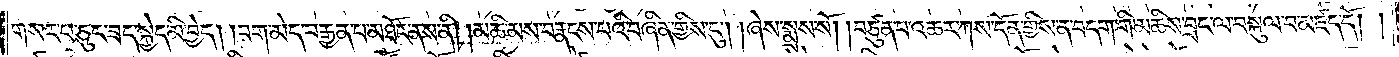གསར་པ་ཅུང་ཟད་སྐྱེད་མི་བྱེད། །བག་མེད་བརྒྱན་པ་མཐོང་ནས་ནི། །མཆི་མས་བརྣངས་པའི་བཞིན་གྱིས་ངུ༌། །ཞེས་སྨྲས་སོ། །བཙུན་པ་འཆར་ཀས་དོན་གྱིས་ན་བདག་གི་མཆིས་བྲང་ལ་བསྐུལ་བ་མཛད་དོ། །
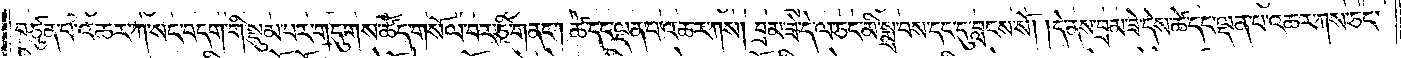བཙུན་པ་འཆར་ཀ་སང་བདག་གི་སྡུམ་པར་གདུགས་ཚོད་གསོལ་བར་ཅི་གནང༌། ཚེ་དང་ལྡན་པ་འཆར་ཀས། བྲམ་ཟེ་དེ་ལ་ཅང་མི་སྨྲ་བས་དང་དུ་བླངས་སོ། །དེ་ནས་བྲམ་ཟེ་དེས་ཚེ་དང་ལྡན་པ་འཆར་ཀས་ཅང་
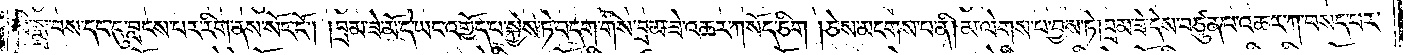མི་སྨྲ་བས་དང་དུ་བླངས་པར་རིག་ནས་སོང་ངོ༌། །བྲམ་ཟེ་མོ་དེ་ཡང་འགྱོད་པ་སྐྱེས་ཏེ་བདག་གིས་བྲམ་ཟེ་འཆར་ཀ་སོད་ཅིག །ཅེས་མངག་པ་ནི། མ་ལེགས་པ་བྱས་ཏེ། བྲམ་ཟེ་དེས་བཙུན་པ་འཆར་ཀ་བསད་པར་
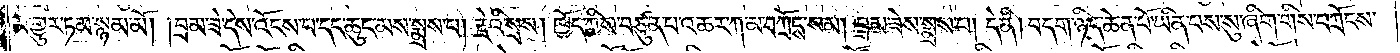མ་གྱུར་ཏམ་སྙམ་མོ། །བྲམ་ཟེ་དེས་འོངས་པ་དང་ཆུང་མས་སྨྲས་པ། རྗེའི་སྲས། ཁྱོད་ཀྱིས་བཙུན་པ་འཆར་ཀ་མ་བཀྲོངས་སམ། བྲམ་ཟེས་སྨྲས་པ། དེ་ནི། བདག་ཉིད་ཆེན་པོ་ཡིན་པས་སུ་ཞིག་གིས་བཀྲོངས་
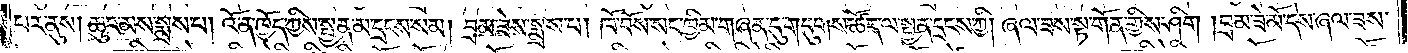པར་ནུས། ཆུང་མས་སྨྲས་པ། འོ་ན་ཁྱོད་ཀྱིས་སྤྱན་མ་དྲངས་སམ། བྲམ་ཟེས་སྨྲས་པ། ཁོ་བོས་སང་ཁྱིམ་གཞན་དུ་གདུགས་ཚོད་ལ་སྤྱན་དྲངས་ཀྱི། ཞལ་ཟས་སྟ་གོན་གྱིས་ཤིག །བྲམ་ཟེ་མོ་དེས་ཞལ་ཟས་
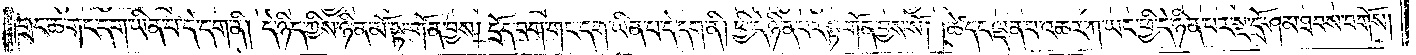གྲང་ཆ་གང་དག་ཡིན་པ་དེ་དག་ནི། དེ་ཉིད་ཀྱིས་ཉིན་མོ་སྟ་གོན་བྱས། དྲོད་བག་གང་དག་ཡིན་པ་དེ་དག་ནི། ཕྱི་དེ་ཉིན་པར་སྟ་གོན་བྱས་སོ། །ཚེ་དང་ལྡན་པ་འཆར་ཀ་ཡང་ཕྱི་དེ་ཉིན་པར་སྔ་དྲོ་ཤམ་ཐབས་བགོས།
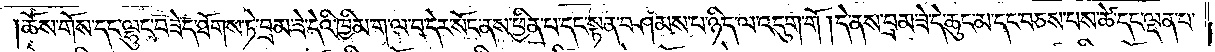ཆོས་གོས་དང་ལྷུང་བཟེད་ཐོགས་ཏེ་བྲམ་ཟེ་དེའི་ཁྱིམ་ག་ལ་བ་དེར་སོང་ནས་ཕྱིན་པ་དང་སྟན་བཤམས་པ་ཉིད་ལ་འདུག་གོ །དེ་ནས་བྲམ་ཟེ་དེ་ཆུང་མ་དང་བཅས་པས་ཚེ་དང་ལྡན་པ་
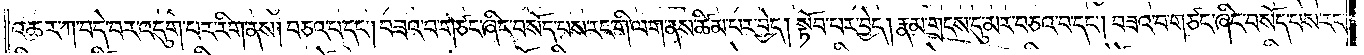འཆར་ཀ་བདེ་བར་འདུག་པར་རིག་ནས། བཅའ་བ་དང༌། བཟའ་བ་གཙང་ཞིང་བསོད་པས་རང་གི་ལག་ནས་ཚིམ་པར་བྱེད། སྟོབ་པར་བྱེད། རྣམ་གྲངས་དུ་མར་བཅའ་བ་དང༌། བཟའ་བ་གཙང་ཞིང་བསོད་པས་རང་
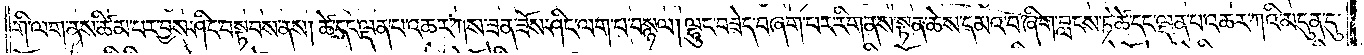གི་ལག་ནས་ཚིམ་པར་བྱས་ཤིང་བསྟབས་ནས། ཚེ་དང་ལྡན་པ་འཆར་ཀས་ཟན་ཟོས་ཤིང་ལག་པ་བསྙལ། ལྷུང་བཟེད་བཞག་པར་རིག་ནས་སྟན་ཆེས་དམའ་བ་ཞིག་བླངས་ཏེ་ཚེ་དང་ལྡན་པ་འཆར་ཀའི་མདུན་དུ་
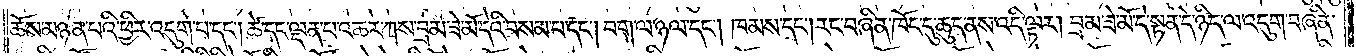ཆོས་མཉན་པའི་ཕྱིར་འདུག་པ་དང༌། ཚེ་དང་ལྡན་པ་འཆར་ཀས་བྲམ་ཟེ་མོ་དེའི་བསམ་པ་དང༌། བག་ལ་ཉལ་དང༌། ཁམས་དང༌། རང་བཞིན་ཁོང་དུ་ཆུད་ནས་འདི་ལྟར། བྲམ་ཟེ་མོ་དེ་སྟན་དེ་ཉིད་ལ་འདུག་བཞིན་
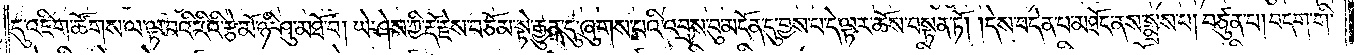དུ་འཇིག་ཚོགས་ལ་ལྟ་བའི་རིའི་རྩེ་མོ་ཉི་ཤུ་མཐོ་བ། ཡེ་ཤེས་ཀྱི་རྡོ་རྗེས་བཅོམ་སྟེ་རྒྱུན་དུ་ཞུགས་པའི་འབྲས་བུ་མངོན་དུ་བྱས་པ་དེ་ལྟར་ཆོས་བསྟན་ཏོ། །དེས་བདེན་པ་མཐོང་ནས་སྨྲས་པ། བཙུན་པ། བདག་གི་
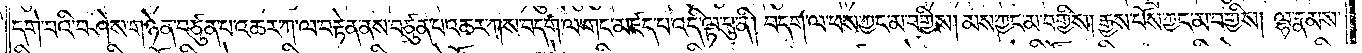དགེ་བའི་བཤེས་གཉེན་བཙུན་པ་འཆར་ཀ་ལ་བརྟེན་ནས་བཙུན་པ་འཆར་ཀས་བདག་ལ་གང་མཛད་པ་འདི་ལྟ་བུ་ནི། བདག་ལ་ཕས་ཀྱང་མ་བགྱིས། མས་ཀྱང་མ་བགྱིས། རྒྱལ་པོས་ཀྱང་མ་བགྱིས། ལྷ་རྣམས་
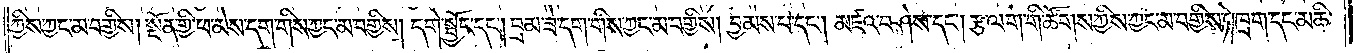ཀྱིས་ཀྱང་མ་བགྱིས། སྔོན་གྱི་ཕ་མེས་དག་གིས་ཀྱང་མ་བགྱིས། དགེ་སྦྱོང་དང༌། བྲམ་ཟེ་དག་གིས་ཀྱང་མ་བགྱིས། བྱམས་པ་དང༌། མཛའ་བཤེས་དང༌། རྩ་ལག་གི་ཚོགས་ཀྱིས་ཀྱང་མ་བགྱིས་ཏེ། ཁྲག་དང་མཆི་
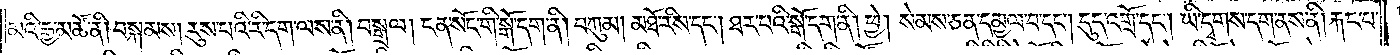མའི་རྒྱ་མཚོ་ནི། བསྐམས། རུས་པའི་རི་དག་ལས་ནི། བསྒྲལ། ངན་སོང་གི་སྒོ་དག་ནི། བཀུམ། མཐོ་རིས་དང༌། ཐར་པའི་སྒོ་དག་ནི། ཕྱེ། སེམས་ཅན་དམྱལ་བ་དང༌། དུད་འགྲོ་དང༌། ཡི་དྭགས་དག་ནས་ནི། རྐང་པ་
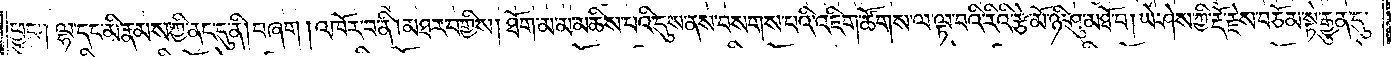ཕྱུང༌། ལྷ་དང་མི་རྣམས་ཀྱི་ནང་དུ་ནི། བཞག །འཁོར་བ་ནི། མཐར་བགྱིས། ཐོག་མ་མ་མཆིས་པའི་དུས་ནས་བསགས་པའི་འཇིག་ཚོགས་ལ་ལྟ་བའི་རིའི་རྩེ་མོ་ཉི་ཤུ་མཐོ་བ། ཡེ་ཤེས་ཀྱི་རྡོ་རྗེས་བཅོམ་སྟེ་རྒྱུན་དུ་
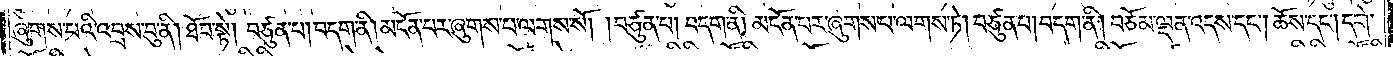ཞུགས་པའི་འབྲས་བུ་ནི། ཐོབ་སྟེ། བཙུན་པ། བདག་ནི། མངོན་པར་ཞུགས་པ་ལགས་སོ། །བཙུན་པ། བདག་ནི། མངོན་པར་ཞུགས་པ་ལགས་ཏེ། བཙུན་པ། བདག་ནི། བཅོམ་ལྡན་འདས་དང༌། ཆོས་དང༌། དགེ་
